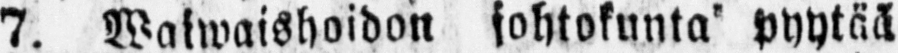7. Waiwaishoidan johtokunta pyytää
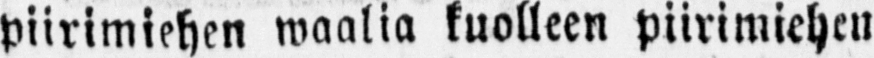piirimiehen waalia kuolleen piirimiehen
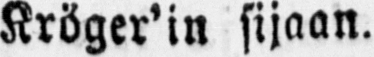Kröger'in sijaan.
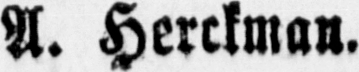A. Herckman.
